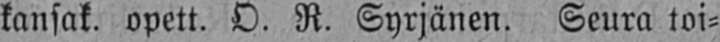kansak. opett. O. R. Syrjänen. Seura toi-
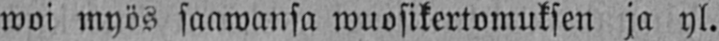woi myös saawansa wuosikertomuksen ja yl.
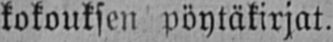kokouksen pöytäkirjat.
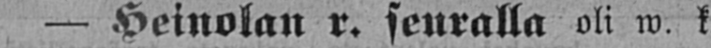— Heinolan r. seuralla oli w k.
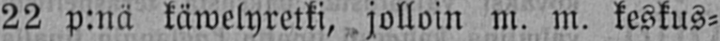22 p:nä käwelyretki, jolloin m. m. keskus-
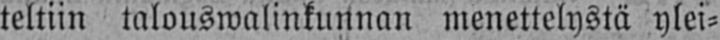teltiin talouswalinkunnan menettelystä ylei-
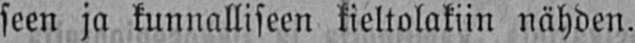seen ja kunnalliseen kieltolakiin nähden.
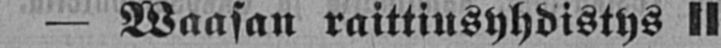— Waasan raittiusyhdistys II
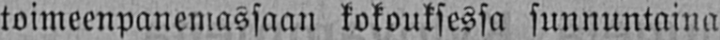toimeenpanemassaan kokouksessa sunnuntaina
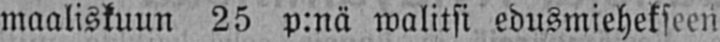maaliskuun 25 p:nä walitsi edusmiehekseen
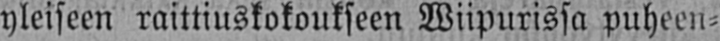yleiseen raittiuskokoukseen Wiipurissa puheen-
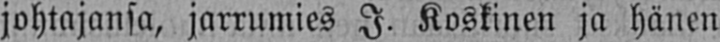johtajansa, jarrumies I. Koskinen ja hänen
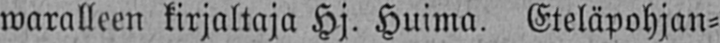waralleen kirjaltaja Hj. Huima. Eteläpohjan-
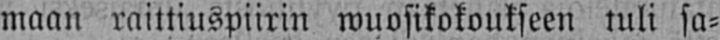maan raittiuspiirin wuosikokoukseen tuli sa-
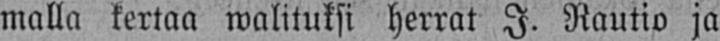malla kertaa walituksi herrat I. Rautio ja
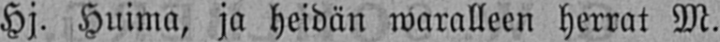Hj. Huima, ja heidän waralleen herrat M.
